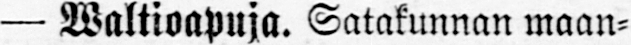— Waltioapuja. Satakunnan maan-
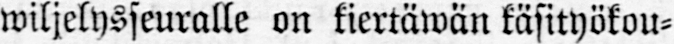wiljelnsseuralle on kiertäwän käsityökou-
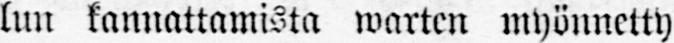lun kannattamista warten myönnetty
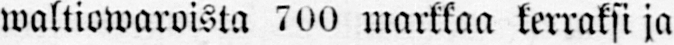waltiowaroista 700 markkaa kerraksi ja
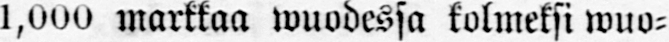1,000 markkaa wuodessa kolmeksi wuo-
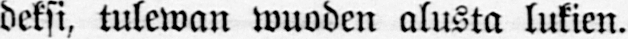deksi, tulewan wuoden alusta lukien.
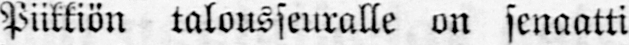Piikkiön talousseuralle on senaatti
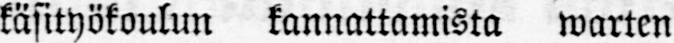käsityökoulun kannattamista warten
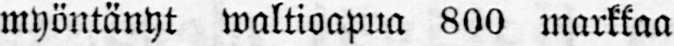myöntänyt waltioapua 800 markkaa
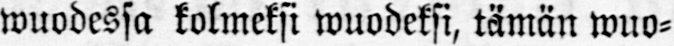wuodessa kolmeksi wuodeksi, tämän wuo-
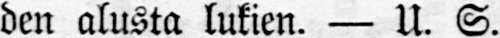den alusta lukien. — U. S.
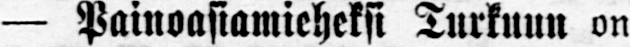— Painoasiamieheksi Turkuun on
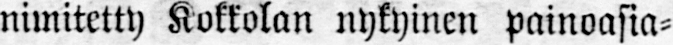nimitetty Kokkolan nykyinen painoasia-
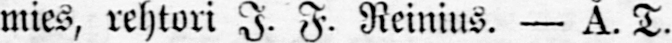mies, rehtori I. F. Reinius. — Å. T.
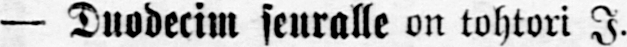— Duodecim seuralle on tohtori I.
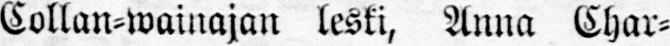Collan-wainajan leski, Anna Char-
